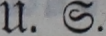U. S.
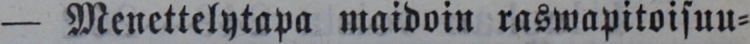— Menettelytapa maidoin raswapitoisuu-
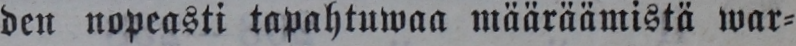den nopeasti tapahtuwaa määräämistä war-
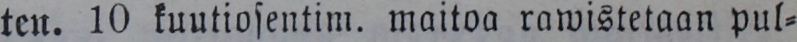ten. 10 kuutiosentim. maitoa rawistetaan pul-
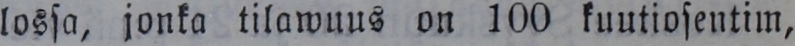lossa, jonka tilawuus on 100 kuutiosentim,
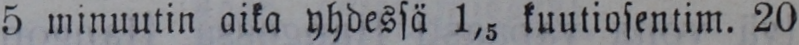5 minuutin aika yhdessä 1,5 kuutiosentim. 20
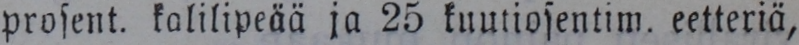prosent. kalilipeää ja 25 kuutiosentim. eetteriä,
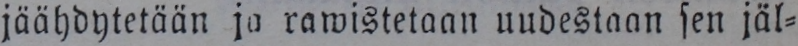jäähdytetään ja rawistetaan uudestaan sen jäl-
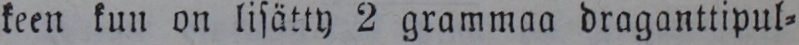keen kun on lisätty 2 grammaa draganttipul-
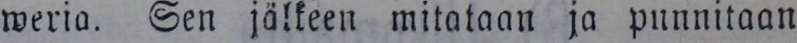weria. Sen jälkeen mitataan ja punnitaan
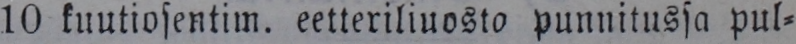10 kuutiosentim. eetteriliuosto punnitussa pul-
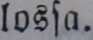lossa.
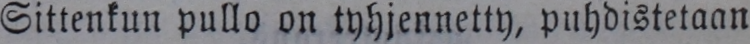Sittenkun pullo on tyhjennetty, puhdistetaan
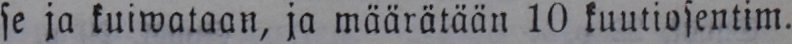se ja kuiwataan, ja määrätään 10 kuutiosentim.
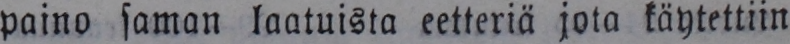paino saman laatuista eetteriä jota käytettiin
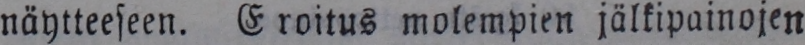näytteeseen. Eroitus molempien jälkipainojen
